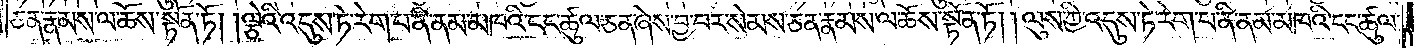ཅན་རྣམས་ལ་ཆོས་སྟོན་ཏོ། །ལྕེའི་འདུས་ཏེ་རེག་པ་ནི་ནམ་མཁའི་ངང་ཚུལ་ཅན་ཞེས་བྱ་བར་སེམས་ཅན་རྣམས་ལ་ཆོས་སྟོན་ཏོ། །ལུས་ཀྱི་འདུས་ཏེ་རེག་པ་ནི་ནམ་མཁའི་ངང་ཚུལ་
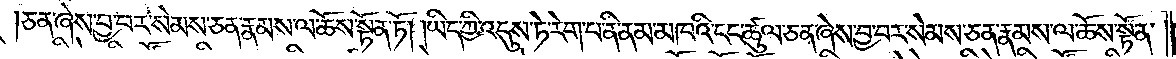ཅན་ཞེས་བྱ་བར་སེམས་ཅན་རྣམས་ལ་ཆོས་སྟོན་ཏོ། །ཡིད་ཀྱི་འདུས་ཏེ་རེག་པ་ནི་ནམ་མཁའི་ངང་ཚུལ་ཅན་ཞེས་བྱ་བར་སེམས་ཅན་རྣམས་ལ་ཆོས་སྟོན་
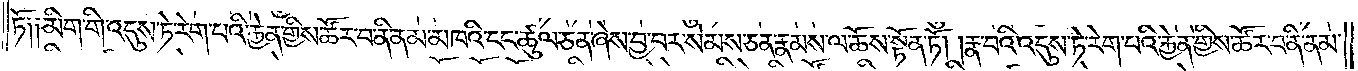ཏོ༑ ༑མིག་གི་འདུས་ཏེ་རེག་པའི་རྐྱེན་གྱིས་ཚོར་བ་ནི་ནམ་མཁའི་ངང་ཚུལ་ཅན་ཞེས་བྱ་བར་སེམས་ཅན་རྣམས་ལ་ཆོས་སྟོན་ཏོ། །རྣ་བའི་འདུས་ཏེ་རེག་པའི་རྐྱེན་གྱིས་ཚོར་བ་ནི་ནམ་
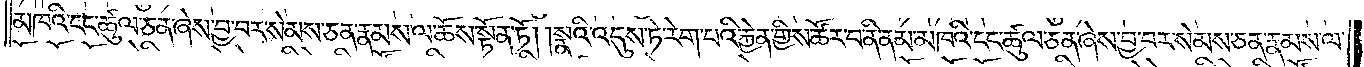མཁའི་ངང་ཚུལ་ཅན་ཞེས་བྱ་བར་སེམས་ཅན་རྣམས་ལ་ཆོས་སྟོན་ཏོ། །སྣའི་འདུས་ཏེ་རེག་པའི་རྐྱེན་གྱིས་ཚོར་བ་ནི་ནམ་མཁའ་ངང་ཚུལ་ཅན་ཞེས་བྱ་བར་སེམས་ཅན་རྣམས་ལ་
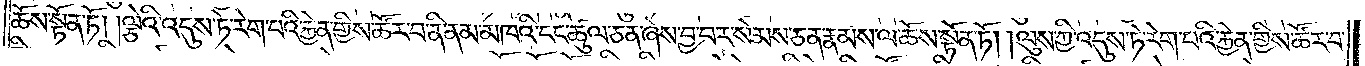ཆོས་སྟོན་ཏོ། །ལྕེའི་འདུས་ཏེ་རེག་པའི་རྐྱེན་གྱིས་ཚོར་བ་ནི་ནམ་མཁའི་ངང་ཚུལ་ཅན་ཞེས་བྱ་བར་སེམས་ཅན་རྣམས་ལ་ཆོས་སྟོན་ཏོ། །ལུས་ཀྱི་འདུས་ཏེ་རེག་པའི་རྐྱེན་གྱིས་ཚོར་བ་
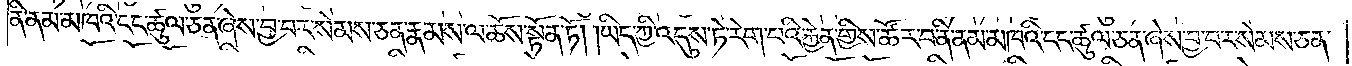ནི་ནམ་མཁའི་ངང་ཚུལ་ཅན་ཞེས་བྱ་བར་སེམས་ཅན་རྣམས་ལ་ཆོས་སྟོན་ཏོ། །ཡིད་ཀྱི་འདུས་ཏེ་རེག་པའི་རྐྱེན་གྱིས་ཚོར་བ་ནི་ནམ་མཁའི་ངང་ཚུལ་ཅན་ཞེས་བྱ་བར་སེམས་ཅན་
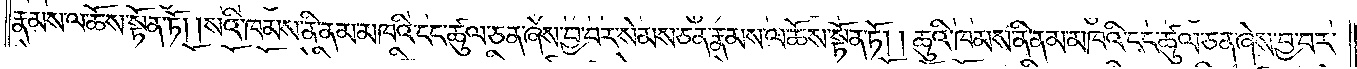རྣམས་ལ་ཆོས་སྟོན་ཏོ། །སའི་ཁམས་ནི་ནམ་མཁའི་ངང་ཚུལ་ཅན་ཞེས་བྱ་བར་སེམས་ཅན་རྣམས་ལ་ཆོས་སྟོན་ཏོ། །ཆུའི་ཁམས་ནི་ནམ་མཁའི་ངང་ཚུལ་ཅན་ཞེས་བྱ་བར་
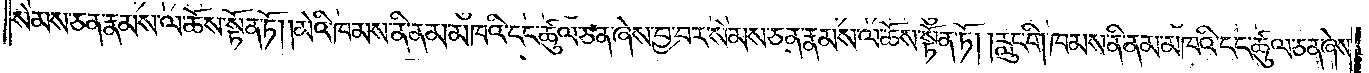སེམས་ཅན་རྣམས་ལ་ཆོས་སྟོན་ཏོ། །མེའི་ཁམས་ནི་ནམ་མཁའི་ངང་ཚུལ་ཅན་ཞེས་བྱ་བར་སེམས་ཅན་རྣམས་ལ་ཆོས་སྟོན་ཏོ། །རླུང་གི་ཁམས་ནི་ནམ་མཁའི་ངང་ཚུལ་ཅན་ཞེས་
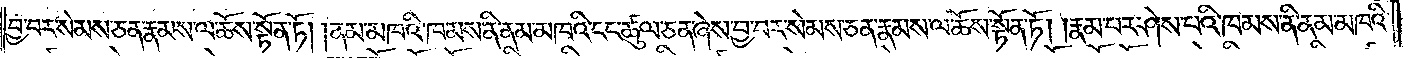བྱ་བར་སེམས་ཅན་རྣམས་ལ་ཆོས་སྟོན་ཏོ། །ནམ་མཁའི་ཁམས་ནི་ནམ་མཁའི་ངང་ཚུལ་ཅན་ཞེས་བྱ་བར་སེམས་ཅན་རྣམས་ལ་ཆོས་སྟོན་ཏོ། རྣམ་པར་ཤེས་པའི་ཁམས་ནི་ནམ་མཁའི་
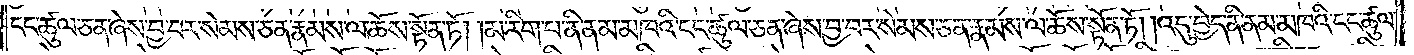ངང་ཚུལ་ཅན་ཞེས་བྱ་བར་སེམས་ཅན་རྣམས་ལ་ཆོས་སྟོན་ཏོ། །མ་རིག་པ་ནི་ནམ་མཁའི་ངང་ཚུལ་ཅན་ཞེས་བྱ་བར་སེམས་ཅན་རྣམས་ལ་ཆོས་སྟོན་ཏོ། །འདུ་བྱེད་ནི་ནམ་མཁའི་ངང་ཚུལ་
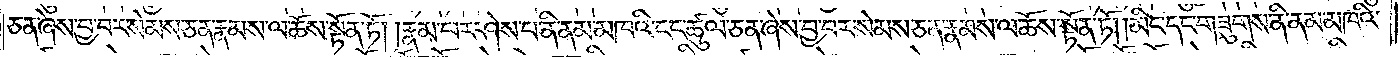ཅན་ཞེས་བྱ་བར་སེམས་ཅན་རྣམས་ལ་ཆོས་སྟོན་ཏོ། །རྣམ་པར་ཤེས་པ་ནི་ནམ་མཁའི་ངང་ཚུལ་ཅན་ཞེས་བྱ་བར་སེམས་ཅན་རྣམས་ལ་ཆོས་སྟོན་ཏོ། །མིང་དང་གཟུགས་ནི་ནམ་མཁའི་
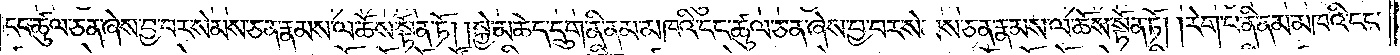ངང་ཚུལ་ཅན་ཞེས་བྱ་བར་སེམས་ཅན་རྣམས་ལ་ཆོས་སྟོན་ཏོ། །སྐྱེ་མཆེད་དྲུག་ནི་ནམ་མཁའི་ངང་ཚུལ་ཅན་ཞེས་བྱ་བར་སེམས་ཅན་རྣམས་ལ་ཆོས་སྟོན་ཏོ། །རེག་པ་ནི་ནམ་མཁའི་ངང་
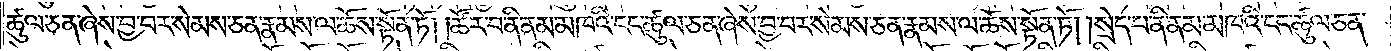ཚུལ་ཅན་ཞེས་བྱ་བར་སེམས་ཅན་རྣམས་ལ་ཆོས་སྟོན་ཏོ། །ཚོར་བ་ནི་ནམ་མཁའི་ངང་ཚུལ་ཅན་ཞེས་བྱ་བར་སེམས་ཅན་རྣམས་ལ་ཆོས་སྟོན་ཏོ། །སྲེད་པ་ནི་ནམ་མཁའི་ངང་ཚུལ་ཅན་
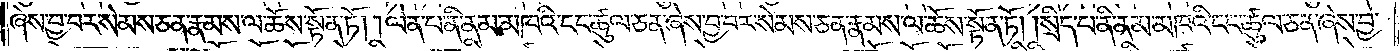ཞེས་བྱ་བར་སེམས་ཅན་རྣམས་ལ་ཆོས་སྟོན་ཏོ། །ལེན་པ་ནི་ནམ་མཁའི་ངང་ཚུལ་ཅན་ཞེས་བྱ་བར་སེམས་ཅན་རྣམས་ལ་ཆོས་སྟོན་ཏོ། །སྲིད་པ་ནི་ནམ་མཁའི་ངང་ཚུལ་ཅན་ཞེས་བྱ་
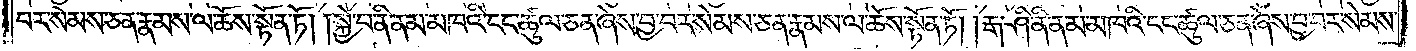བར་སེམས་ཅན་རྣམས་ལ་ཆོས་སྟོན་ཏོ། །སྐྱེ་བ་ནི་ནམ་མཁའི་ངང་ཚུལ་ཅན་ཞེས་བྱ་བར་སེམས་ཅན་རྣམས་ལ་ཆོས་སྟོན་ཏོ། །རྒ་ཤི་ནི་ནམ་མཁའི་ངང་ཚུལ་ཅན་ཞེས་བྱ་བར་སེམས་
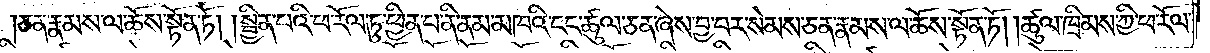ཅན་རྣམས་ལ་ཆོས་སྟོན་ཏོ། །སྦྱིན་པའི་ཕ་རོལ་ཏུ་ཕྱིན་པ་ནི་ནམ་མཁའི་ངང་ཚུལ་ཅན་ཞེས་བྱ་བར་སེམས་ཅན་རྣམས་ལ་ཆོས་སྟོན་ཏོ། །ཚུལ་ཁྲིམས་ཀྱི་ཕ་རོལ་
